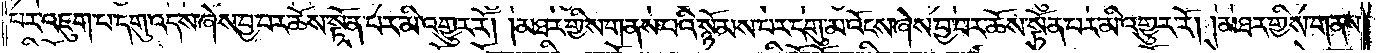པར་འཇུག་པ་དགུ་འདས་ཞེས་བྱ་བར་ཆོས་སྟོན་པར་མི་འགྱུར་རོ། །མཐར་གྱིས་གནས་པའི་སྙོམས་པར་འཇུག་པ་དགུ་མ་འོངས་ཞེས་བྱ་བར་ཆོས་སྟོན་པར་མི་འགྱུར་རོ། །མཐར་གྱིས་གནས་
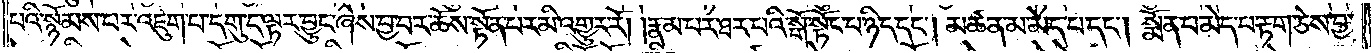པའི་སྙོམས་པར་འཇུག་པ་དགུ་ད་ལྟར་བྱུང་ཞེས་བྱ་བར་ཆོས་སྟོན་པར་མི་འགྱུར་རོ། །རྣམ་པར་ཐར་པའི་སྒོ་སྟོང་པ་ཉིད་དང༌། མཚན་མ་མེད་པ་དང༌། སྨོན་པ་མེད་པ་རྟག་ཅེས་བྱ་
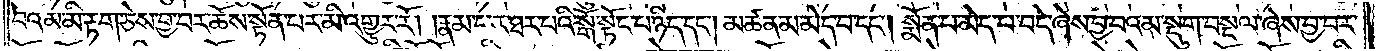བའམ་མི་རྟག་ཅེས་བྱ་བར་ཆོས་སྟོན་པར་མི་འགྱུར་རོ། །རྣམ་པར་ཐར་པའི་སྒོ་སྟོང་པ་ཉིད་དང༌། མཚན་མ་མེད་པ་དང༌། སྨོན་པ་མེད་པ་བདེ་ཞེས་བྱ་བའམ་སྡུག་བསྔལ་ཞེས་བྱ་བར་
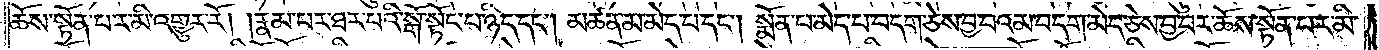ཆོས་སྟོན་པར་མི་འགྱུར་རོ། །རྣམ་པར་ཐར་པའི་སྒོ་སྟོང་པ་ཉིད་དང༌། མཚན་མ་མེད་པ་དང༌། སྨོན་པ་མེད་པ་བདག་ཅེས་བྱ་བའམ་བདག་མེད་ཅེས་བྱ་བར་ཆོས་སྟོན་པར་མི་
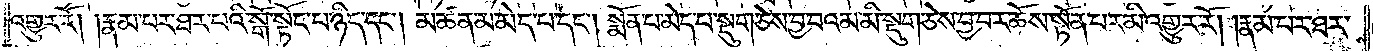འགྱུར་རོ། །རྣམ་པར་ཐར་པའི་སྒོ་སྟོང་པ་ཉིད་དང༌། མཚན་མ་མེད་པ་དང༌། སྨོན་པ་མེད་པ་སྡུག་ཅེས་བྱ་བའམ་མི་སྡུག་ཅེས་བྱ་བར་ཆོས་སྟོན་པར་མི་འགྱུར་རོ། །རྣམ་པར་ཐར་
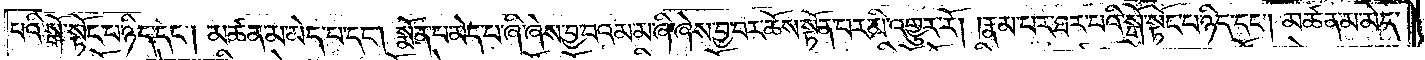པའི་སྒོ་སྟོང་པ་ཉིད་དང༌། མཚན་མ་མེད་པ་དང༌། སྨོན་པ་མེད་པ་ཞི་ཞེས་བྱ་བའམ་མ་ཞི་ཞེས་བྱ་བར་ཆོས་སྟོན་པར་མི་འགྱུར་རོ། །རྣམ་པར་ཐར་པའི་སྒོ་སྟོང་པ་ཉིད་དང༌། མཚན་མ་མེད་
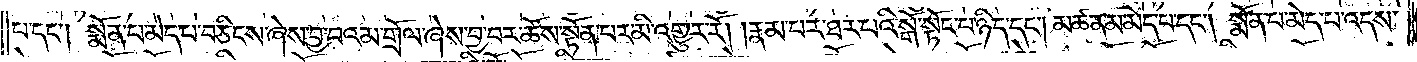པ་དང༌། སྨོན་པ་མེད་པ་བཅིངས་ཞེས་བྱ་བའམ་གྲོལ་ཞེས་བྱ་བར་ཆོས་སྟོན་པར་མི་འགྱུར་རོ། །རྣམ་པར་ཐར་པའི་སྒོ་སྟོང་པ་ཉིད་དང༌། མཚན་མ་མེད་པ་དང༌། སྨོན་པ་མེད་པ་འདས་
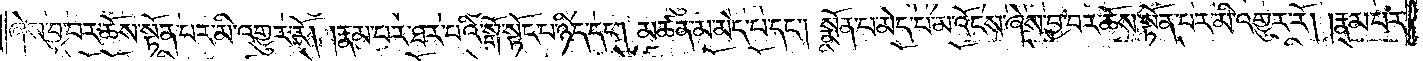ཞེས་བྱ་བར་ཆོས་སྟོན་པར་མི་འགྱུར་རོ། །རྣམ་པར་ཐར་པའི་སྒོ་སྟོང་པ་ཉིད་དང༌། མཚན་མ་མེད་པ་དང༌། སྨོན་པ་མེད་པ་མ་འོངས་ཞེས་བྱ་བར་ཆོས་སྟོན་པར་མི་འགྱུར་རོ། །རྣམ་པར་
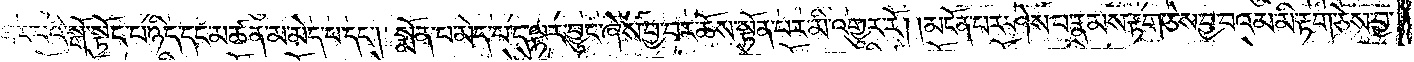ཐར་པའི་སྒོ་སྟོང་པ་ཉིད་དང་མཚན་མ་མེད་པ་དང༌། སྨོན་པ་མེད་པ་ད་ལྟར་བྱུང་ཞེས་བྱ་བར་ཆོས་སྟོན་པར་མི་འགྱུར་རོ། །མངོན་པར་ཤེས་པ་རྣམས་རྟག་ཅེས་བྱ་བའམ་མི་རྟག་ཅེས་བྱ་
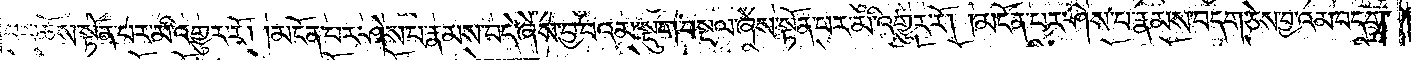བར་ཆོས་སྟོན་པར་མི་འགྱུར་རོ། །མངོན་པར་ཤེས་པ་རྣམས་བདེ་ཞེས་བྱ་བའམ་སྡུག་བསྔལ་ཞེས་བྱ་བར་ཆོས་སྟོན་པར་མི་འགྱུར་རོ། །མངོན་པར་ཤེས་པ་རྣམས་བདག་ཅེས་བྱ་བའམ་བདག་
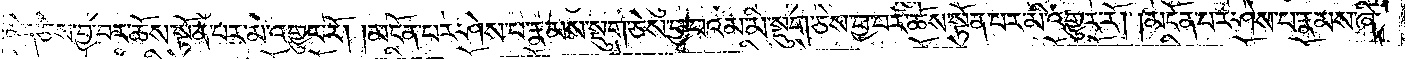མེད་ཅེས་བྱ་བར་ཆོས་སྟོན་པར་མི་འགྱུར་རོ། །མངོན་པར་ཤེས་པ་རྣམས་སྡུག་ཅེས་བྱ་བའམ་མི་སྡུག་ཅེས་བྱ་བར་ཆོས་སྟོན་པར་མི་འགྱུར་རོ། །མངོན་པར་ཤེས་པ་རྣམས་ཞི་
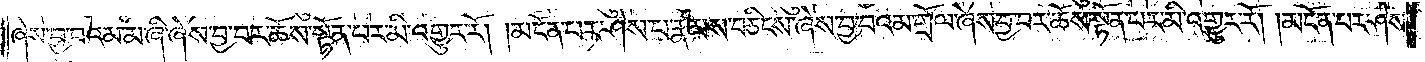ཞེས་བྱ་བའམ་མ་ཞི་ཞེས་བྱ་བར་ཆོས་སྔོན་པར་མི་འགྱུར་རོ། །མངོན་པར་ཤེས་པ་རྣམས་བཅིངས་ཞེས་བྱ་བའམ་གྲོལ་ཞེས་བྱ་བར་ཆོས་སྟོན་པར་མི་འགྱུར་རོ། །མངོན་པར་ཤེས་
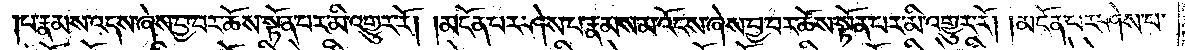པ་རྣམས་འདས་ཞེས་བྱ་བར་ཆོས་སྟོན་པར་མི་འགྱུར་རོ། །མངོན་པར་ཤེས་པ་རྣམས་མ་འོངས་ཞེས་བྱ་བར་ཆོས་སྟོན་པར་མི་འགྱུར་རོ། །མངོན་པར་ཤེས་པ་
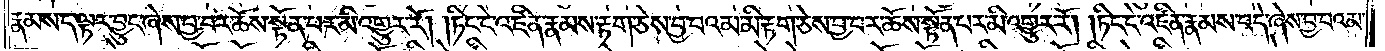རྣམས་ད་ལྟར་བྱུང་ཞེས་བྱ་བར་ཆོས་སྟོན་པར་མི་འགྱུར་རོ། །ཏིང་ངེ་འཛིན་རྣམས་རྟག་ཅེས་བྱ་བའམ་མི་རྟག་ཅེས་བྱ་བར་ཆོས་སྟོན་པར་མི་འགྱུར་རོ། །ཏིང་ངེ་འཛིན་རྣམས་བདེ་ཞེས་བྱ་བའམ་
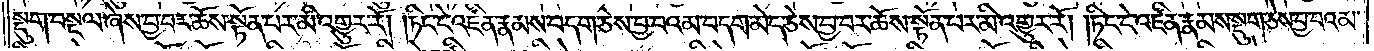སྡུག་བསྔལ་ཞེས་བྱ་བར་ཆོས་སྟོན་པར་མི་འགྱུར་རོ། །ཏིང་ངེ་འཛིན་རྣམས་བདག་ཅེས་བྱ་བའམ་བདག་མེད་ཅེས་བྱ་བར་ཆོས་སྟོན་པར་མི་འགྱུར་རོ། །ཏིང་ངེ་འཛིན་རྣམས་སྡུག་ཅེས་བྱ་བའམ་
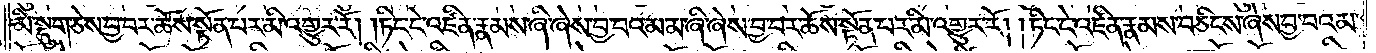མི་སྡུག་ཅེས་བྱ་བར་ཆོས་སྟོན་པར་མི་འགྱུར་རོ། །ཏིང་ངེ་འཛིན་རྣམས་ཞི་ཞེས་བྱ་བའམ་མ་ཞི་ཞེས་བྱ་བར་ཆོས་སྟོན་པར་མི་འགྱུར་རོ། །ཏིང་ངེ་འཛིན་རྣམས་བཅིངས་ཞེས་བྱ་བའམ་
